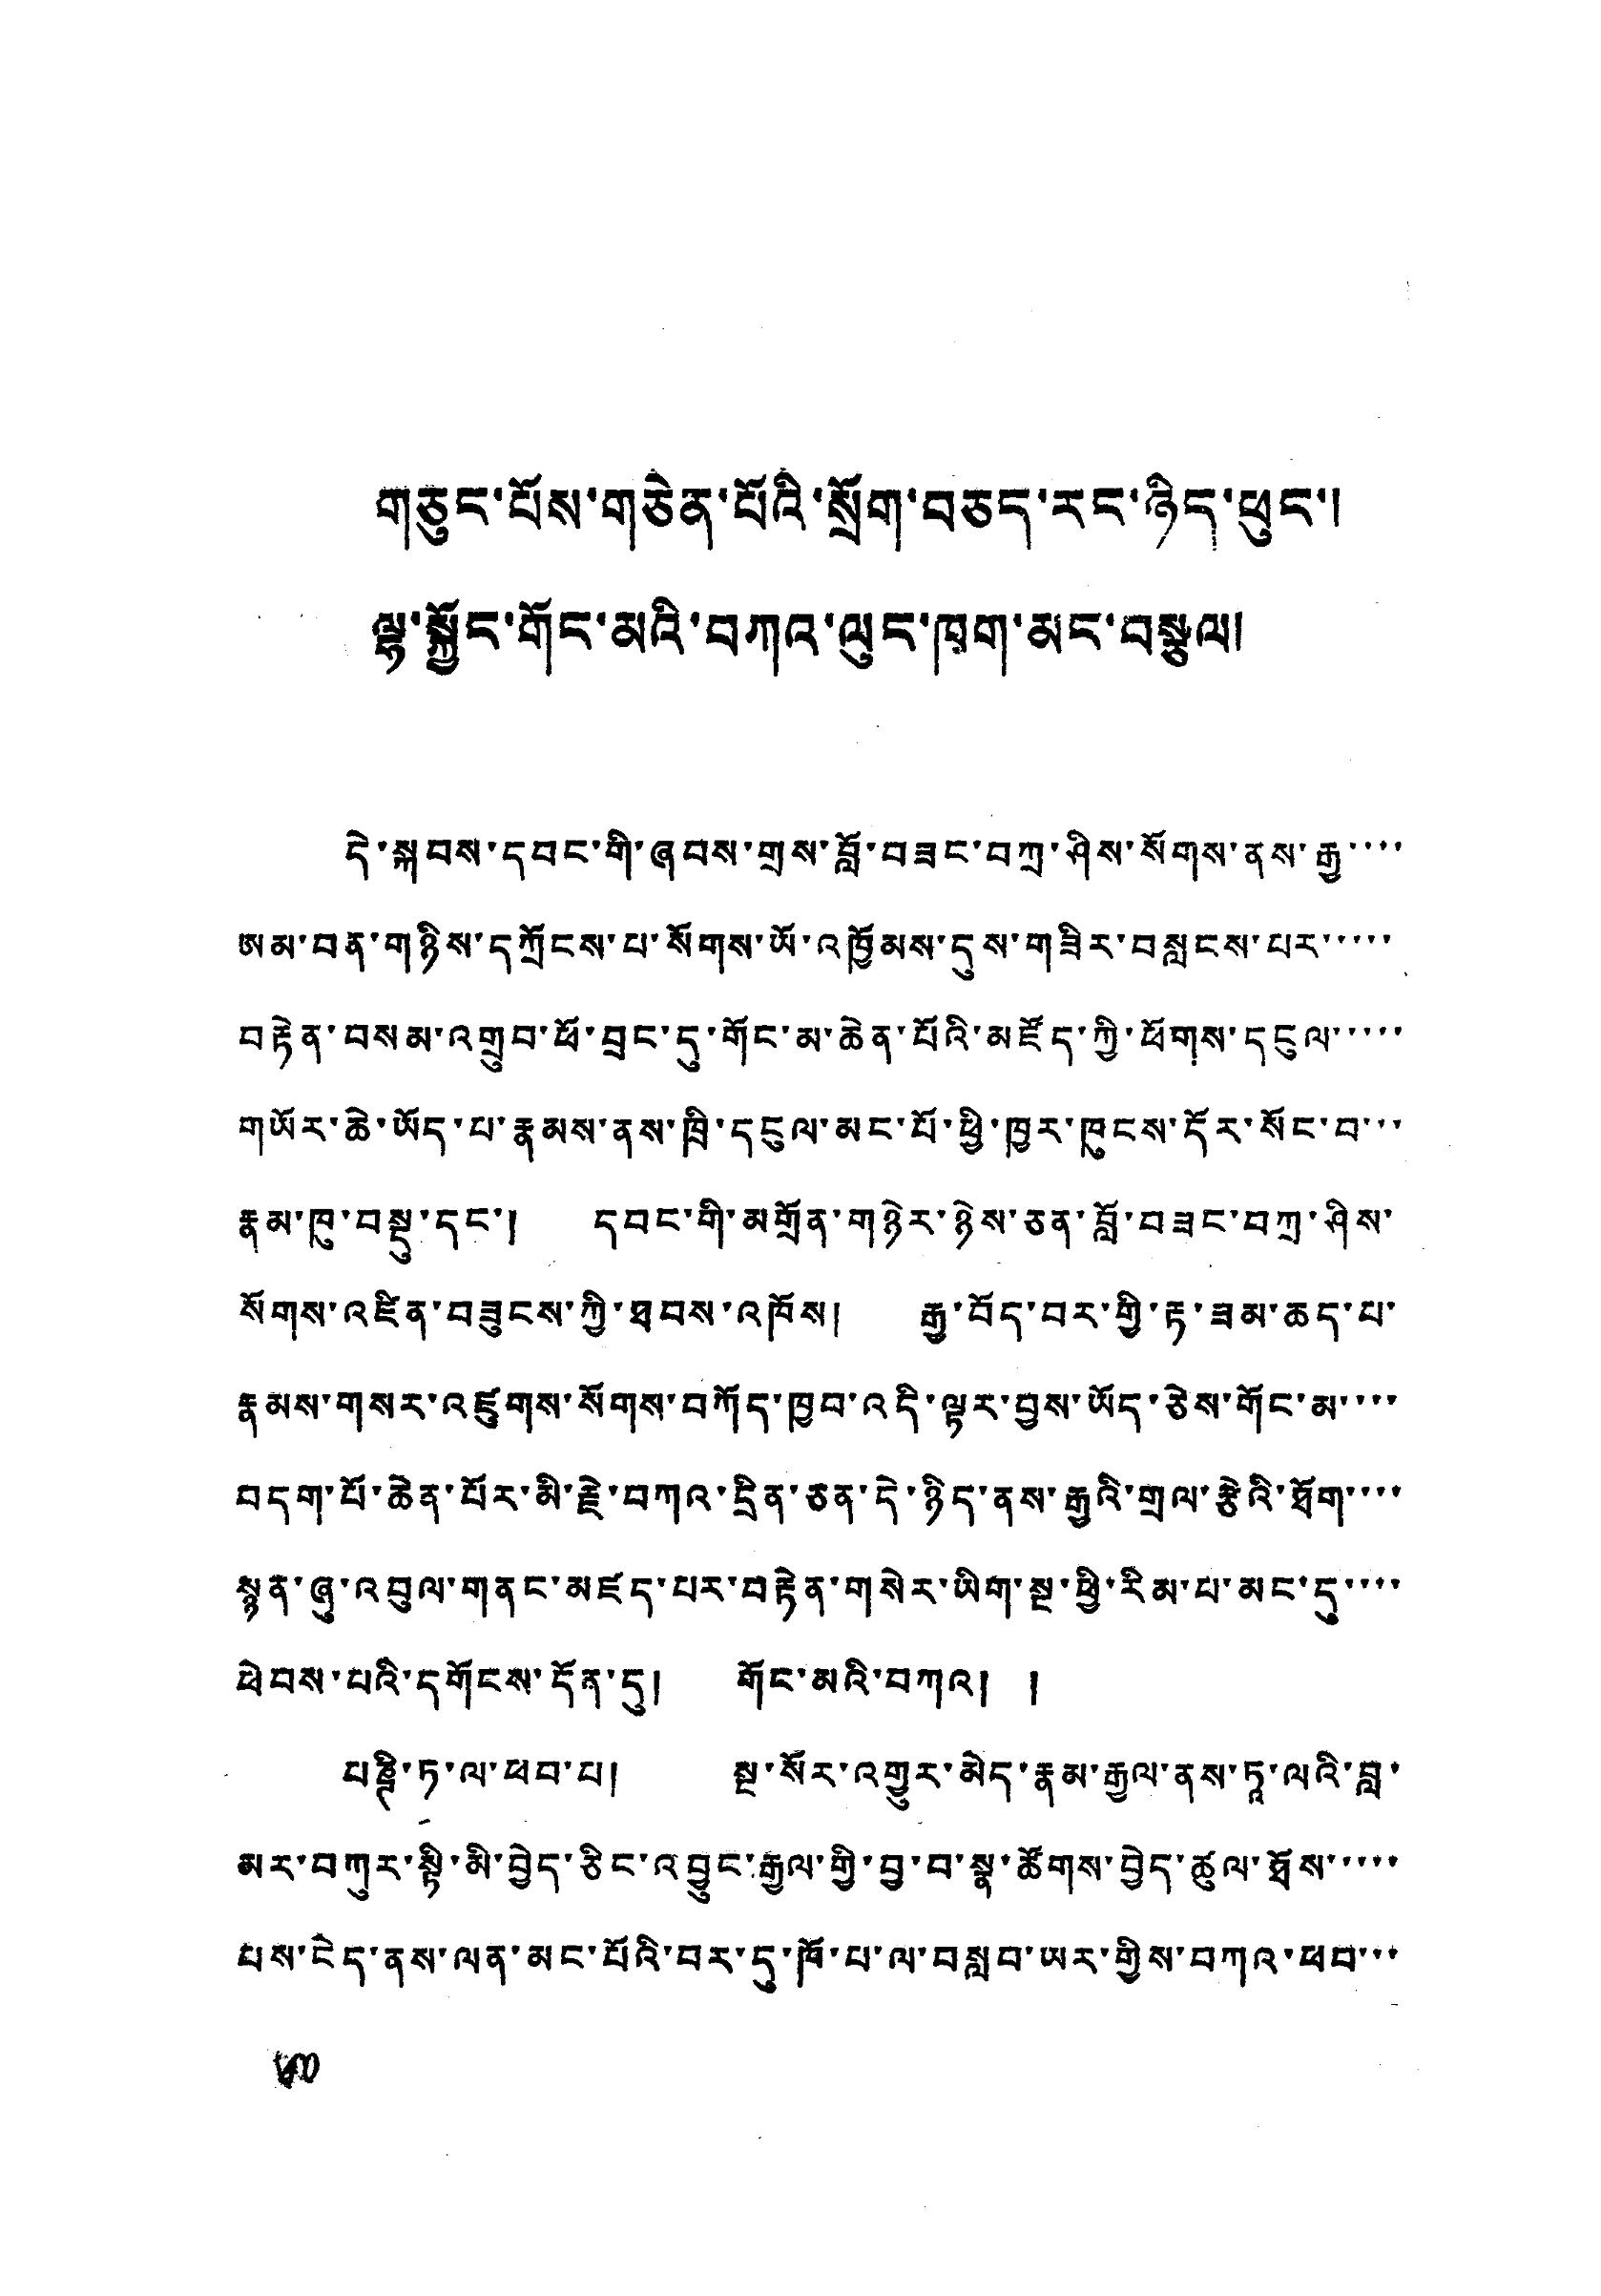གཅུང་པོས་གཅེན་པོའི་སྲོག་བཅད་རང་ཉིད་ཕུང་།
ལྷ་སྐྱོང་གོང་མའི་བཀའ་ལུང་ཁག་མང་བསྩལ།
དེ་སྐབས་དབང་གི་ཞབས་གྲས་བློ་བཟང་བཀྲ་ཤིས་སོགས་ནས་རྒྱ་་་
ཨམ་བན་གཉིས་དཀྲོངས་པ་སོགས་ཡོ་འཁྱོམས་དུས་གཟིར་བསླངས་པར་་་་་
བརྟེན་བསམ་འགྲུབ་ཕོ་བྲང་དུ་གོང་མ་ཆེན་པོའི་མཛོད་ཀྱི་ཕོགས་དངུལ་་་་་
གཡོར་ཆེ་ཡོད་པ་རྣམས་ནས་ཁྲི་དངུལ་མང་པོ་ཕྱི་ཁྱར་ཁུངས་དོར་སོང་བ་་་
རྣམ་ཁུ་བསྡུ་དང་། དབང་གི་མགྲོན་གཉེར་ཉེས་ཅན་བློ་བཟང་བཀྲ་ཤིས་
སོགས་འཛིན་བཟུངས་ཀྱི་ཐབས་འཁོས། རྒྱ་བོད་བར་གྱི་རྟ་ཟམ་ཆད་པ་
རྣམས་གསར་འཛུགས་སོགས་བཀོད་ཁྱབ་འདི་ལྟར་བྱས་ཡོད་ཅེས་གོང་མ་་་་
བདག་པོ་ཆེན་པོར་མི་རྗེ་བཀའ་དྲིན་ཅན་དེ་ཉིད་ནས་རྒྱའི་གྲལ་རྩེའི་ཐོག་་་་
སྙན་ཞུ་འབུལ་གནང་མཛད་པར་བརྟེན་གསེར་ཡིག་སྔ་ཕྱི་རིམ་པ་མང་དུ་་་་
ཕེབས་པའི་དགོངས་དོན་དུ། གོང་མའི་བཀའ། །
པཎྚི་ཏ་ལ་ཕབ་པ། སྔ་སོར་འགྱུར་མེད་རྣམ་རྒྱལ་ནས་ཏཱ་ལའི་བླ་
མར་བཀུར་སྟི་མི་བྱེད་ཅིང་འབྱུང་རྒྱལ་གྱི་བྱ་བ་སྣ་ཚོགས་བྱེད་ཚུལ་ཐོས་་་་་
པས་ངེད་ནས་ལན་མང་པོའི་བར་དུ་ཁོ་པ་ལ་བསླབ་ཡར་གྱིས་བཀའ་ཕབ་་་
40
